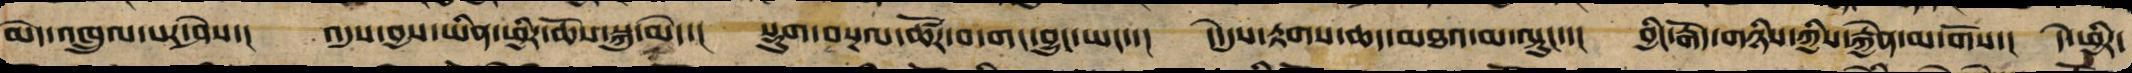མེད་འཁྲུལ་པར་ཤེས་། འདུས་བྱས་ཡིན་ཕྱིར་ཆོས་སྐུ་མེད་། སྡུག་བསྔལ་ཚོར་བ་གང་བྱུང་ཡང་་། དེ་དུས་རྟག་ཆད་མཐར་མ་ལྟུང་་། བྱིང་རྒོད་གཉིས་ཀྱི་རྐྱེན་མ་གོས། དེ་ཕྱིར་
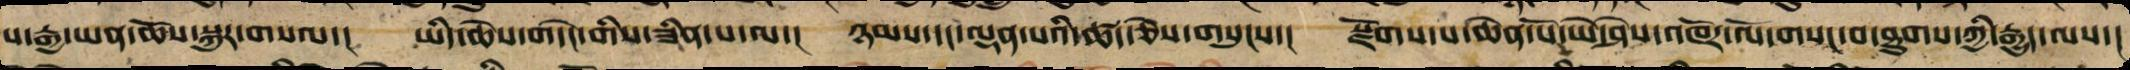པ་རྒྱ་ཡན་ཆོས་སྐུར་གསལ་། ཡིད་ཆེས་གདེང་གིས་ཟིན་པ་ལ་། ཉམས་དང་ལྡན་པའི་ཚད་ཅེས་གསུངས་། སྫོགས་པ་ཆེན་པོ་ཡེ་ཤེས་འཁོར་ལོ་གསང་བ་ཐུགས་ཀྱི་རྒྱུད་ལས་།
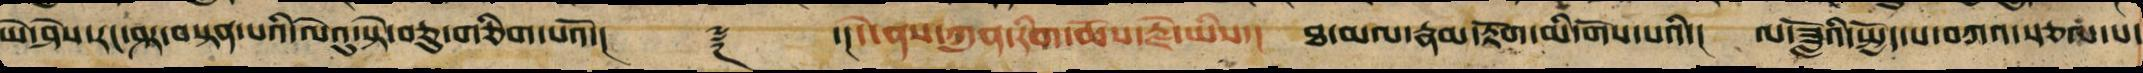ཡེ་ཤེས་རང་ཤར་བསྟན་པའི་ལེའུ་སྟེ་བཅུ་གཅིག་པའོ།་། ༈ ་།།དེ་ནས་ཀུན་རིག་ཆོས་རྗེ་ཡིས་། ཐ་མལ་རྣམ་རྟོག་མི་གོས་པའི་། ལ་ཟློའི་སྤྱོད་པ་བཀའ་སྩལ་པ་
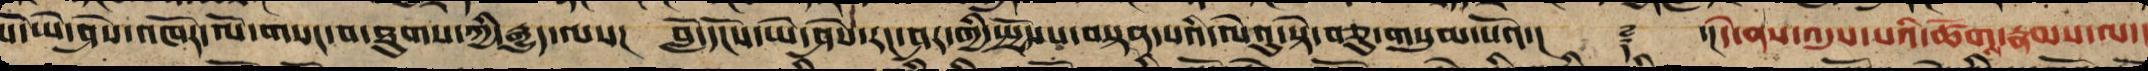པོ་ཡེ་ཤེས་འཁོར་ལོ་གསང་བ་ཐུགས་ཀྱི་རྒྱུད་ལས། བློ་དངོས་ཡེ་ཤེས་རང་ཤར་གྱི་སྤྱོད་པ་བསྟན་པའི་ལེའུ་སྟེ་བཅུ་གསུམ་པའོ་།། ༈ ་།།དེ་ནས་འདུས་པའི་ཚོགས་རྣམས་ལ་།
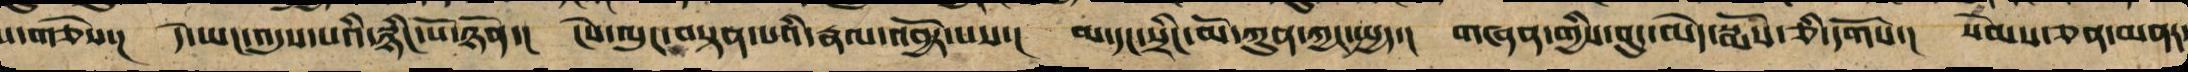པ་གཅེས་། དེ་ཡང་འདུས་པའི་སྙིང་པོ་ཉོན་། ངེས་ལུང་བསྟན་པའི་རྣལ་འབྱོར་པས་། མ་དང་སྲིང་མོ་ཀུན་ཀྱང་སྤྱད་། གཞན་གྱི་བུད་མེད་སྨོས་ཅི་དགོས་། སེམས་ཅན་མན
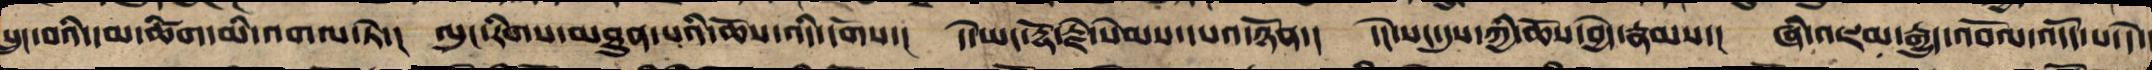བསྲུང་བའི་དམ་ཚིག་མི་འགལ་ཏེ་། ལུང་རིགས་མཐུན་པའི་ཆོས་འདི་དགོས་། དེ་ཡང་རྡོ་རྗེ་སེམས་དཔའ་ཉོན་། དེང་སང་དུས་ཀྱི་ཆོས་བྱེད་རྣམས་། ཞི་འཇམ་རྒྱུད་འབོལ་འདོད་པ་དེ་
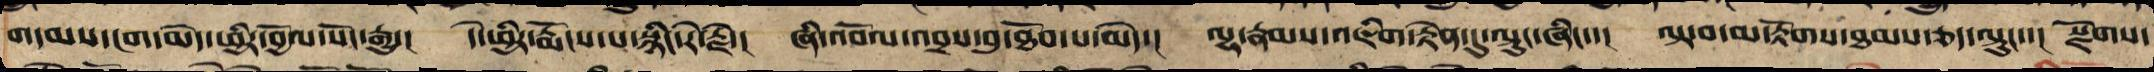གདམས་ངག་མེད་ཕྱིར་བྱོལ་སོང་རྒྱུ་། དེ་ཕྱིར་རྨོངས་པ་སྙིང་རེ་རྗེ་། ཞི་འབོལ་འབྲས་བུ་ཐོབ་པ་མེད་། ལྷ་རྣམས་འཇིག་རྟེན་དུ་ལྟུང་ཞིང་་། ལྟ་བ་མ་རྟོགས་ཐམས་ཅད་ལྟུང་་། སྫོགས་
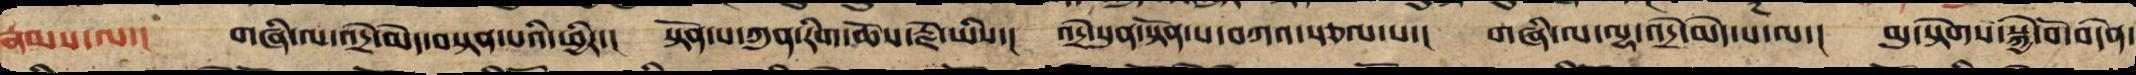རྣམས་ལ་། གཞི་ལ་འདྲེ་མེད་བསྟན་པའི་ཕྱིར་། སྟོན་པ་ཀུན་རིག་ཆོས་རྗེ་ཡིས་། འདྲེ་སུན་སྟོན་པ་བཀའ་སྩལ་པ་། གཞི་ལ་ལྷ་འདྲེ་མེད་པ་ལ་། མུ་སྟེགས་སྐྱེ་བོ་བདེན་
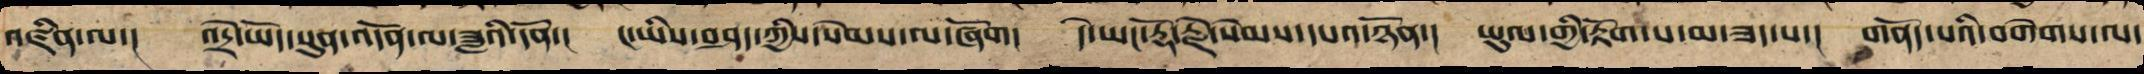འཛིན་པ་། འདྲེ་ཡོད་སུན་འདོན་ལ་ཟླའི་དོན་། ང་ཡིས་བཤད་ཀྱིས་སེམས་ལ་ཞོག། དེ་ཡང་རྡོ་རྗེ་སེམས་དཔའ་ཉོན་། ཡུལ་གྱི་རྟོག་པ་མ་ཟད་པ་། གནོད་པའི་བགེགས་ལ་
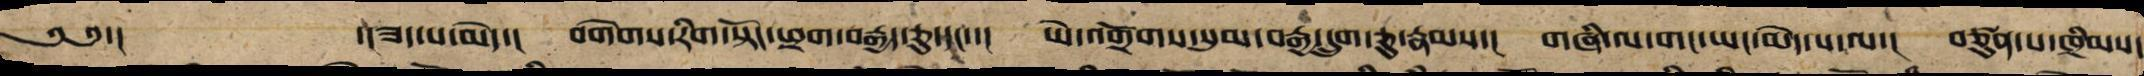༄༅་། ་།ཟད་པ་མེད་། བགེགས་རིགས་སྟོང་ཕྲག་བརྒྱད་ཅུ་དང་་། ཡེ་འགྲོགས་སུམ་བརྒྱ་དྲུག་ཅུ་རྣམས་། གཞི་ལ་གང་ཡང་མེད་པ་ལ་། བཙུན་པ་ཁྲིམས་
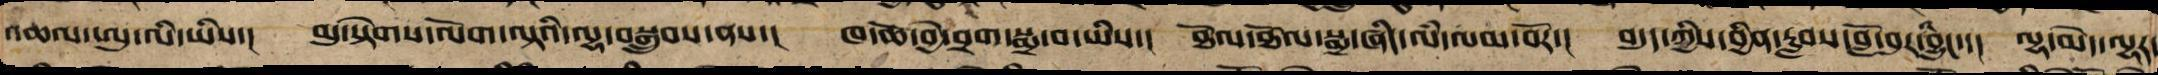འཆལ་ཨུ་ལི་ཡིས་། མུ་སྟེགས་ལོག་ལྟའི་ལྷ་བསྒྲུབས་ནས་། ཁ་ཆེ་བྱེ་བྲག་སྨྲ་བ་ཡིས་། ཐོལ་ཐོལ་སྨྲ་ཞིང་ལམ་ལམ་བོར་། བདུད་ཀྱི་བྱིན་རླབས་གློ་བུར་འབྱུང་། ལྷ་མེད་ལྷར་
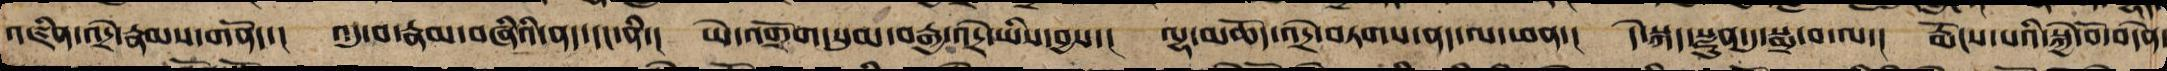འཛིན་འདྲེ་རྣམས་གནོད་། འདུ་བ་རྣམ་བཞིའི་ནད་དང་ནི་། ཡེ་འགྲོག་སུམ་བརྒྱ་འདྲེ་ཡིས་བྱས་། ལྷ་མཆོད་འདྲེ་བཏགས་ནད་ལ་ཕན་། དེ་སྐད་ནསྫུ་དུ་སྨྲ་བ་ལ་། རྨོངས་པའི་སྐྱེ་བོ་བདེན་
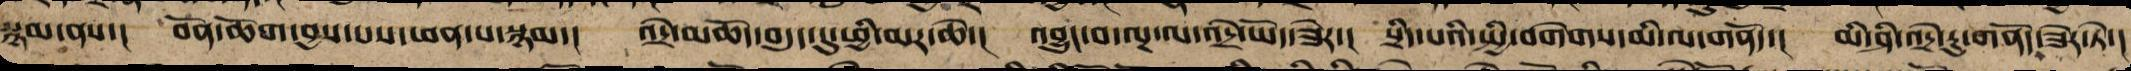སྙམ་ནས་། བོན་ཆོག་བྱས་པས་ཕན་པ་སྙམ་། འདྲེ་མཆོད་བདུད་དུ་ཕྱི་མར་ཆེ་། འབྱུང་བ་ལྔ་ལ་འདྲེ་ཡོད་ཟེར་། སྲིད་པའི་སྤྱི་བགེགས་མི་ལ་གནོད་། མི་ཤི་འདྲེ་རུ་གནོད་ཟེར་ཏེ་།
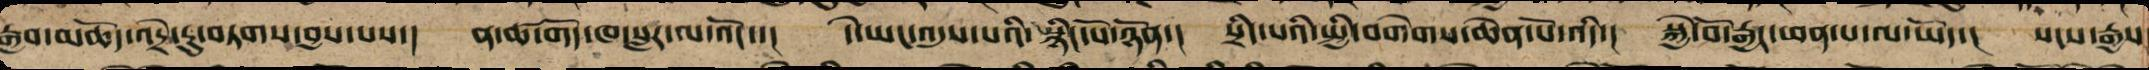རྒྱབ་མཆོད་འདྲེ་རུ་བཏགས་བྱས་པས་། ན་ཚ་གོད་ཁ་སླར་ལ་འོང་་། ད་ཡང་འདུས་པའི་སྙིང་པོ་ཉོན་། སྲིད་པའི་སྤྱི་བགེགས་ཆེན་པོ་འདི་། སྐྱེ་བོ་རྒྱང་འཕེན་པ་ལ་ཡོད་། སངས་རྒྱས་
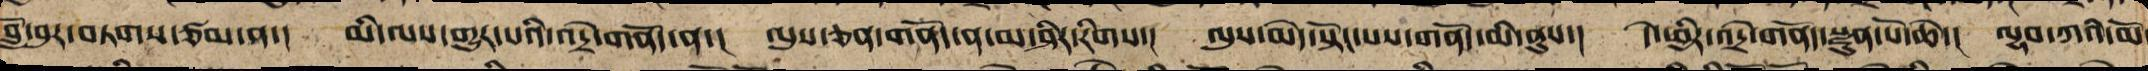གློ་བུར་བཏགས་ཙམ་ན་། མི་ལས་གྱུར་པའི་འདྲེ་གནོད་ན་། ལུས་ཅན་གནོད་ན་མ་ཤིར་རིགས་། ལུས་མེད་སྟོང་པས་གནོད་མི་ནུས་། དེ་ཕྱིར་འདྲེ་གནོད་སྫུན་པོ་ཆེ། ལྷབ་ཀའི་མོ
